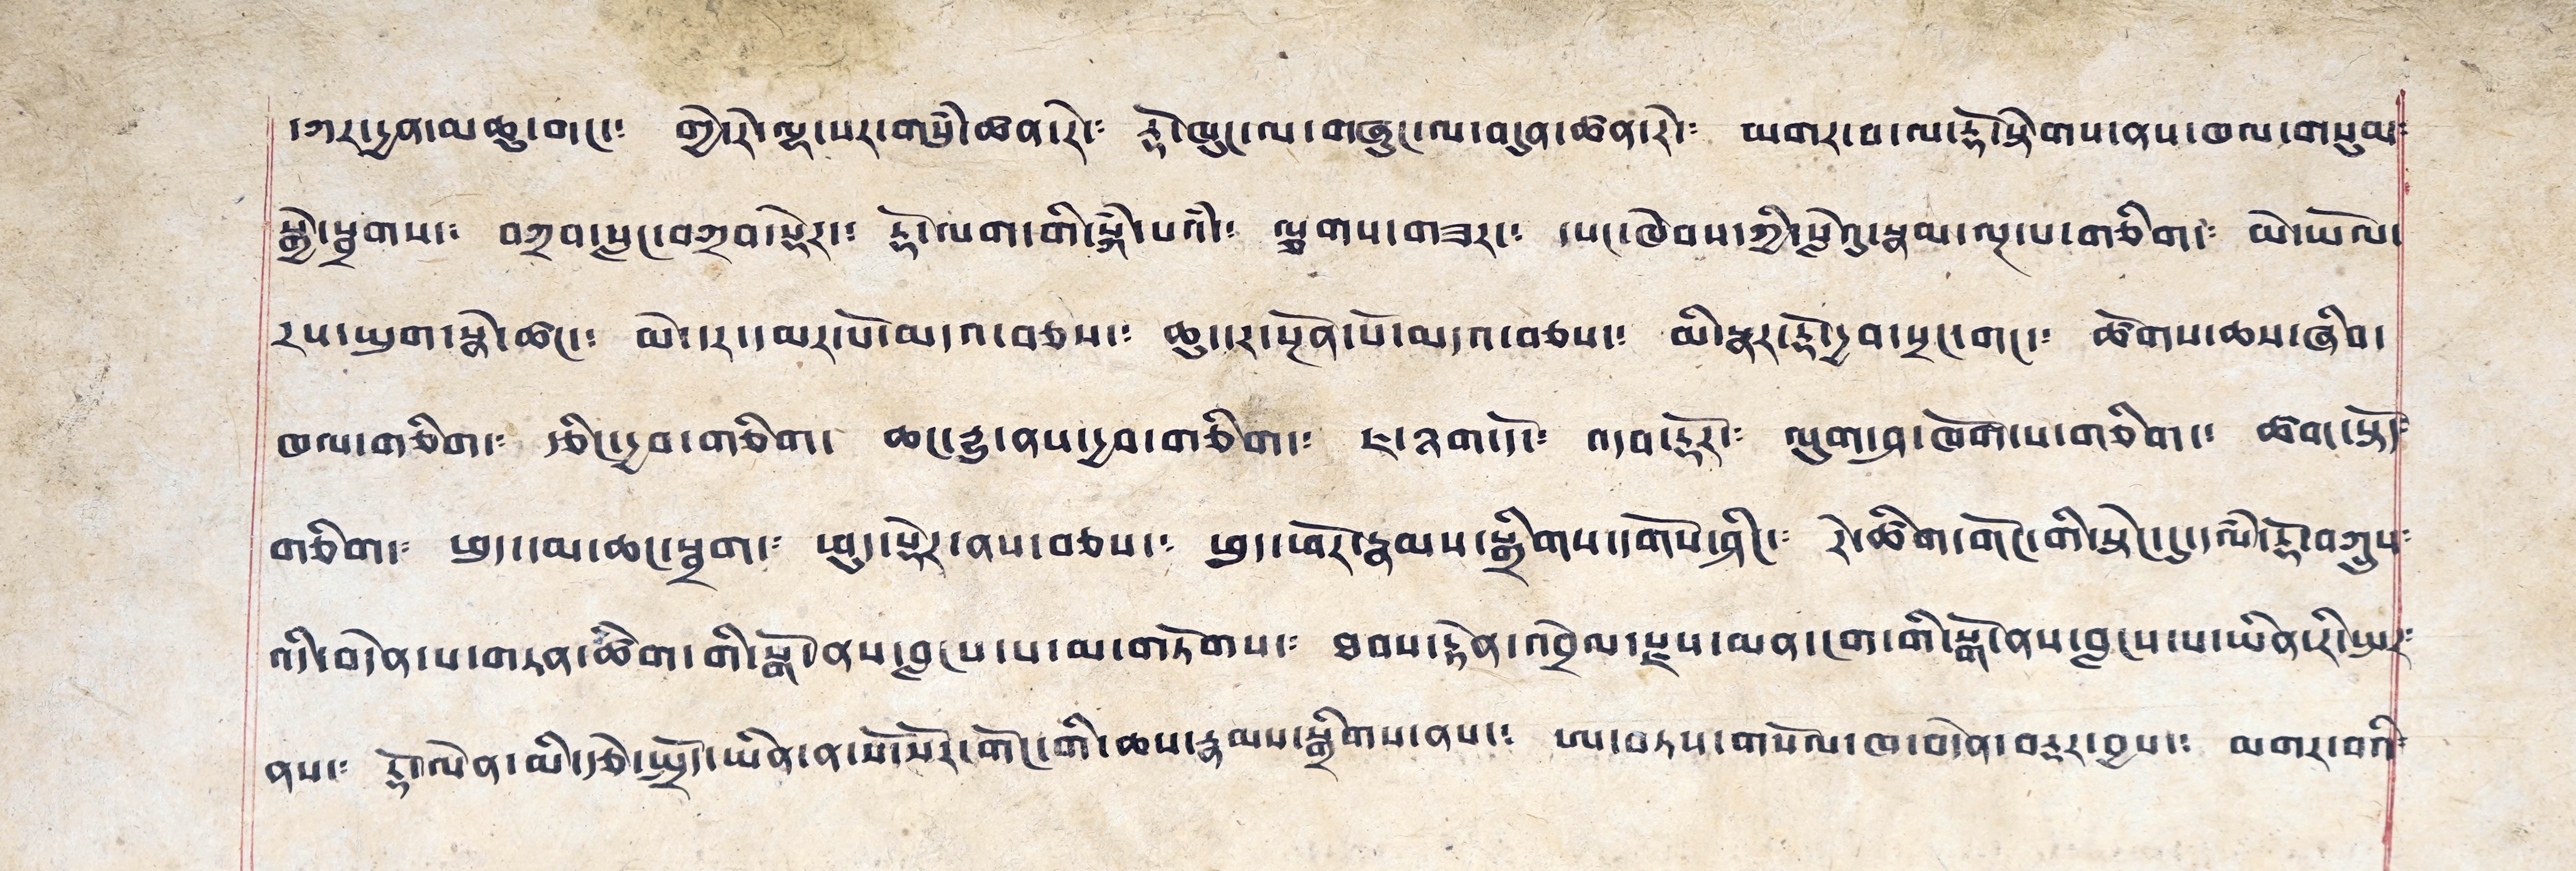དཀར་དྱན་མཆུ་གང་༴ གྱེ་རེ་ལྷ་སར་གསུཾ་ཚན་རེ་༴ རྡོ་ཁུང་ལ་གཞུང་ལ་བདུན་ཚན་རེ་༴ མགར་བ་ལ་རྡོ་སྟེགས་ནས་ཁལ་གསུམ༴
སྒྱེ་སྦགས་༴ བཀྲབ་སླང་བཀྲབ་སྡེར་༴ རྡོ་ལག་གི་སྐཾ་པའཾ་༴ ལྕགས་གཟར་༴ དཔང་ཁེབས་ཀྱི་སླེ་འུ་རྣམ་ལྔ་པ་གཅིག་༴ མེ་ཡོལ་
རས་ཡུག་སྣེ་ཚང་༴ མེ་དར་དམར་པོ་མདའ་བཅས་༴ ཆུ་དར་སྔོན་པོ་མདའ་བཅས་༴ མི་སྣར་རྡོ་དྱབ་སྲང་གང་༴ ཚོགས་ཆས་ཞིབ་
ཁལ་གཅིག་༴ རྩིང་དྱབ་གཅིག་༴ ཆང་རྒྱུ་ནས་དྱབ་གཅིག་༴ ཇ་ཉག་དོ་༴ འདབ་རྡོར་༴ ལུག་ཤ་ཁོག་པ་གཅིག་༴ ཚག་སྟོད༴
གཅིག་༴ ཕུད་དམ་ཆང་སྦྲག་༴ ཕུ་སྡེར་ནས་བཅས་༴ ཕུད་ཕོར་རྣམས་སྒྲིགས་དགོས་ཤིང་༴ རེ་ཚིག་གོང་གི་སྟེང་དུ་དལཾ་རྡོ་བཀྲུས༴
འདི་བདེན་པ་གཏན་ཚིག་གི་སྒོ་ནས་བླངས་པ་མ་གཏོགས་༴ ཐབས་རྟེན་འབྲེལ་རྫས་མན་ངག་གི་སྒོ་ནས་བླངས་པ་ཡིན་རི་སྤར༴
ནས་༴ རྡོ་ལེན་མི་རྩེ་སྤྲོད་ཡིན་ན་སོ་སོར་གོང་གི་ཆས་རྣམས་སྒྲིགས་ནས་༴ ཨ་བཏས་གསོལ་ཁ་བདེན་བརྡར་བྱས་༴ མགར་བའི༴
